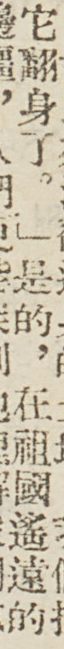它翻身了。」是的，在祖國遙遠的
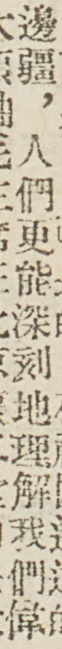邊疆，人們更能深刻地理解我們偉
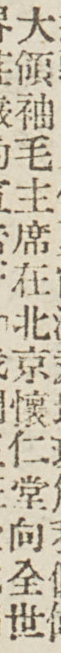大領袖毛主席在北京懷仁堂向全世
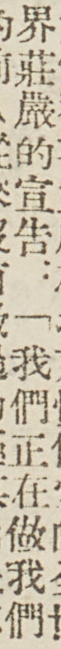界莊嚴的宣告：「我們正在做我們
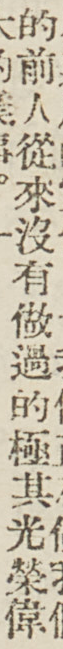的前人從來沒有做過的極其光榮偉
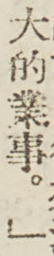大的事業。」
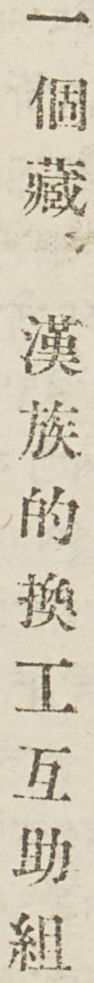一個藏漢族的換工互助組
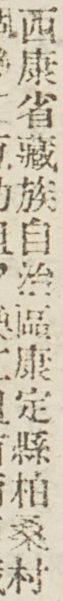西康省藏族自治區康定縣柏桑村
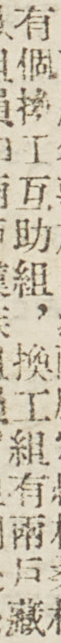有個換工互助組，換工組有兩戶藏
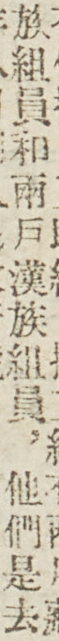族組員和兩戶漢族組員，他們是去
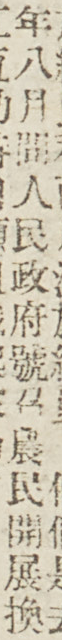年八月間人民政府號召農民開展換
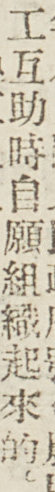工互助時自願組織起來的。
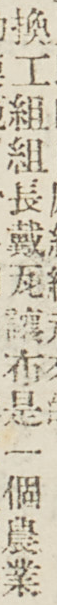換工組組長戴瓦讓布是一個農業
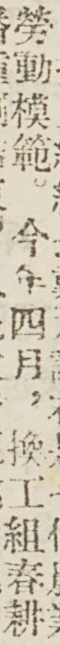勞動模範。今年四月，換工組春耕
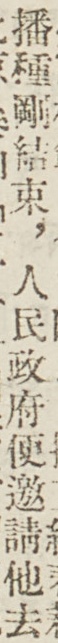播種剛結束，人民政府便邀請他去
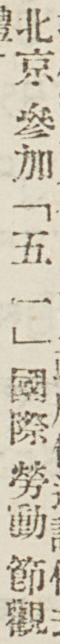北京參加「五一」國際勞動節觀
